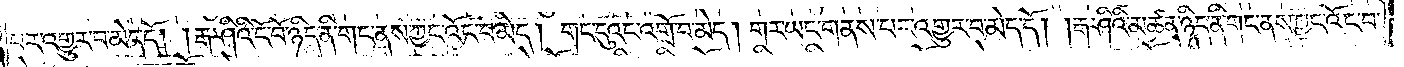པར་འགྱུར་བ་མེད་དོ། །རྒ་ཤིའི་ངོ་བོ་ཉིད་ནི་གང་ནས་ཀྱང་འོང་བ་མེད། གང་དུའང་འགྲོ་བ་མེད། གར་ཡང་གནས་པར་འགྱུར་བ་མེད་དོ། །རྒ་ཤིའི་མཚན་ཉིད་ནི་གང་ནས་ཀྱང་འོང་བ་
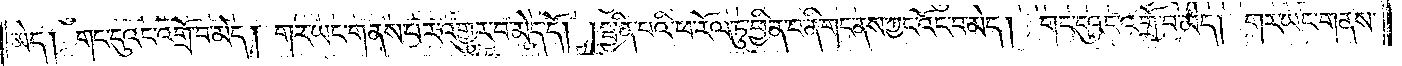མེད། གང་དུའང་འགྲོ་བ་མེད། གར་ཡང་གནས་པར་འགྱུར་བ་མེད་དོ། །སྦྱིན་པའི་ཕ་རོལ་ཏུ་ཕྱིན་པ་ནི་གང་ནས་ཀྱང་འོང་བ་མེད། གང་དུའང་འགྲོ་བ་མེད། གར་ཡང་གནས་
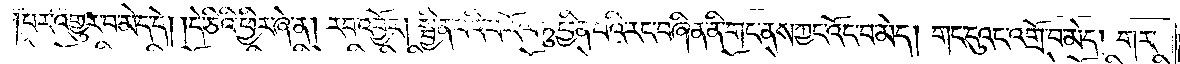པར་འགྱུར་བ་མེད་དེ། དེ་ཅིའི་ཕྱིར་ཞེ་ན། རབ་འབྱོར། སྦྱིན་པའི་ཕ་རོལ་ཏུ་ཕྱིན་པའི་རང་བཞིན་ནི་གང་ནས་ཀྱང་འོང་བ་མེད། གང་དུའང་འགྲོ་བ་མེད། གར་
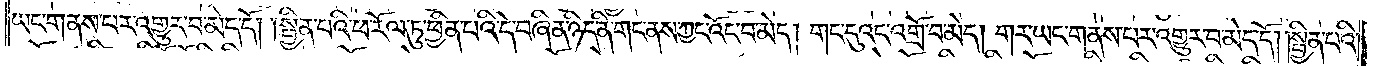ཡང་གནས་པར་འགྱུར་བ་མེད་དོ། །སྦྱིན་པའི་ཕ་རོལ་ཏུ་ཕྱིན་པའི་དེ་བཞིན་ཉིད་ནི་གང་ནས་ཀྱང་འོང་བ་མེད། གང་དུའང་འགྲོ་བ་མེད། གར་ཡང་གནས་པར་འགྱུར་བ་མེད་དོ། །སྦྱིན་པའི་
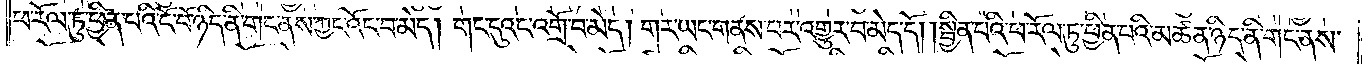ཕ་རོལ་ཏུ་ཕྱིན་པའི་ངོ་བོ་ཉིད་ནི་གང་ནས་ཀྱང་འོང་བ་མེད། གང་དུའང་འགྲོ་བ་མེད། གར་ཡང་གནས་པར་འགྱུར་བ་མེད་དོ། །སྦྱིན་པའི་ཕ་རོལ་ཏུ་ཕྱིན་པའི་མཚན་ཉིད་ནི་གང་ནས་
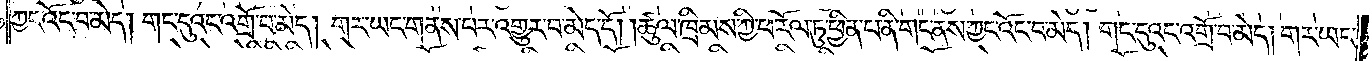ཀྱང་འོང་བ་མེད། གང་དུའང་འགྲོ་བ་མེད། གར་ཡང་གནས་པར་འགྱུར་བ་མེད་དོ། །ཚུལ་ཁྲིམས་ཀྱི་ཕ་རོལ་ཏུ་ཕྱིན་པ་ནི་གང་ནས་ཀྱང་འོང་བ་མེད། གང་དུའང་འགྲོ་བ་མེད། གར་ཡང་
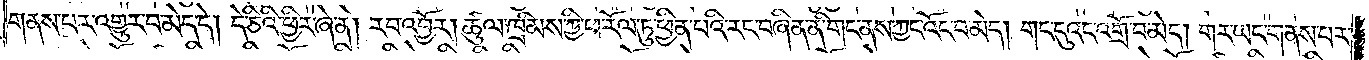གནས་པར་འགྱུར་བ་མེད་དེ། དེ་ཅིའི་ཕྱིར་ཞེ་ན། རབ་འབྱོར། ཚུལ་ཁྲིམས་ཀྱི་ཕ་རོལ་ཏུ་ཕྱིན་པའི་རང་བཞིན་ནི་གང་ནས་ཀྱང་འོང་བ་མེད། གང་དུའང་འགྲོ་བ་མེད། གར་ཡང་གནས་པར་
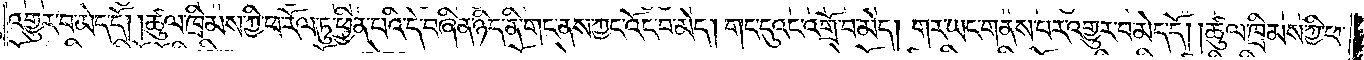འགྱུར་བ་མེད་དོ། །ཚུལ་ཁྲིམས་ཀྱི་ཕ་རོལ་ཏུ་ཕྱིན་པའི་དེ་བཞིན་ཉིད་ནི་གང་ནས་ཀྱང་འོང་བ་མེད། གང་དུ་འང་འགྲོ་བ་མེད། གར་ཡང་གནས་པར་འགྱུར་བ་མེད་དོ། །ཚུལ་ཁྲིམས་ཀྱི་ཕ་
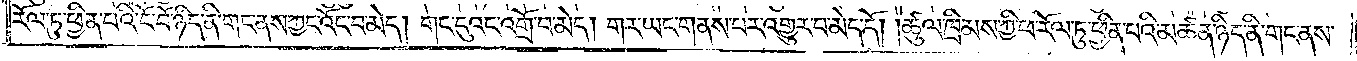རོལ་ཏུ་ཕྱིན་པའི་ངོ་བོ་ཉིད་ནི་གང་ནས་ཀྱང་འོང་བ་མེད། གང་དུའང་འགྲོ་བ་མེད། གར་ཡང་གནས་པར་འགྱུར་བ་མེད་དོ། །ཚུལ་ཁྲིམས་ཀྱི་ཕ་རོལ་ཏུ་ཕྱིན་པའི་མཚན་ཉིད་ནི་གང་ནས་
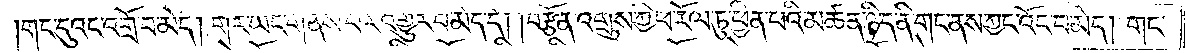གང་དུའང་འགྲོ་བ་མེད། གར་ཡང་གནས་པར་འགྱུར་བ་མེད་དོ། །བརྩོན་འགྲུས་ཀྱི་ཕ་རོལ་ཏུ་ཕྱིན་པའི་མཚན་ཉིད་ནི་གང་ནས་ཀྱང་འོང་བ་མེད། གང་
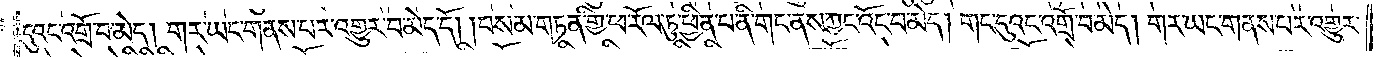དུའང་འགྲོ་བ་མེད། གར་ཡང་གནས་པར་འགྱུར་བ་མེད་དོ། །བསམ་གཏན་གྱི་ཕ་རོལ་ཏུ་ཕྱིན་པ་ནི་གང་ནས་ཀྱང་འོང་བ་མེད། གང་དུའང་འགྲོ་བ་མེད། གར་ཡང་གནས་པར་འགྱུར་
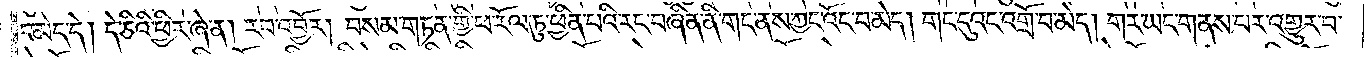བ་མེད་དེ། དེ་ཅིའི་ཕྱིར་ཞེ་ན། རབ་འབྱོར། བསམ་གཏན་གྱི་ཕ་རོལ་ཏུ་ཕྱིན་པའི་རང་བཞིན་ནི་གང་ནས་ཀྱང་འོང་བ་མེད། གང་དུའང་འགྲོ་བ་མེད། གར་ཡང་གནས་པར་འགྱུར་བ་
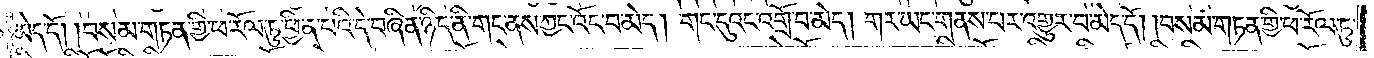མེད་དོ། །བསམ་གཏན་གྱི་ཕ་རོལ་ཏུ་ཕྱིན་པའི་དེ་བཞིན་ཉིད་ནི་གང་ནས་ཀྱང་འོང་བ་མེད། གང་དུའང་འགྲོ་བ་མེད། གར་ཡང་གནས་པར་འགྱུར་བ་མེད་དོ། །བསམ་གཏན་གྱི་ཕ་རོལ་ཏུ་
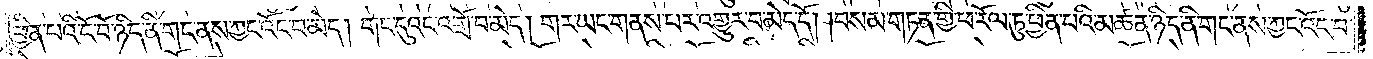ཕྱིན་པའི་ངོ་བོ་ཉིད་ནི་གང་ནས་ཀྱང་འོང་བ་མེད། གང་དུའང་འགྲོ་བ་མེད། གར་ཡང་གནས་པར་འགྱུར་བ་མེད་དོ། །བསམ་གཏན་གྱི་ཕ་རོལ་ཏུ་ཕྱིན་པའི་མཚན་ཉིད་ནི་གང་ནས་ཀྱང་འོང་བ་
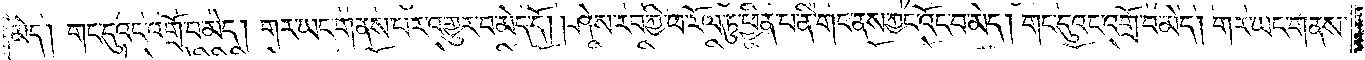མེད། གང་དུའང་འགྲོ་བ་མེད། གར་ཡང་གནས་པར་འགྱུར་བ་མེད་དོ། །ཤེས་རབ་ཀྱི་ཕ་རོལ་ཏུ་ཕྱིན་པ་ནི་གང་ནས་ཀྱང་འོང་བ་མེད། གང་དུའང་འགྲོ་བ་མེད། གར་ཡང་གནས་
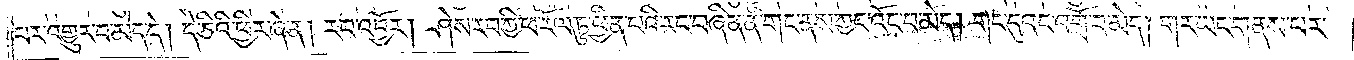པར་འགྱུར་བ་མེད་དེ། དེ་ཅིའི་ཕྱིར་ཞེ་ན། རབ་འབྱོར། ཤེས་རབ་ཀྱི་ཕ་རོལ་ཏུ་ཕྱིན་པའི་རང་བཞིན་ནི་གང་ནས་ཀྱང་འོང་བ་མེད། གང་དུའང་འགྲོ་བ་མེད། གར་ཡང་གནས་པར་
